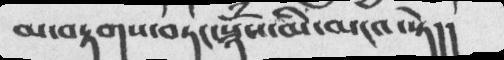མ་བརྟགས་བཏང་སྙོཾས་མི་མངའ་སྟེ།།
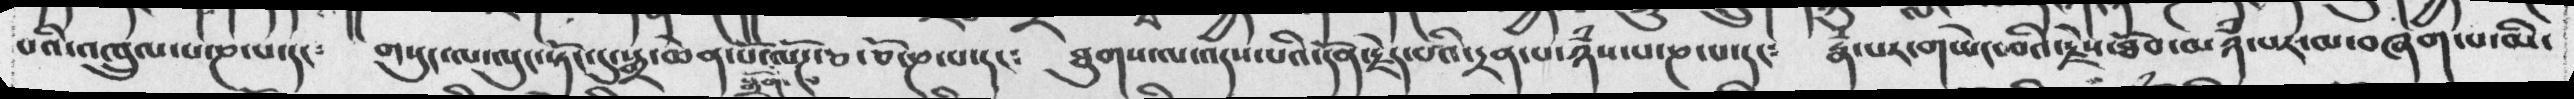པའི་འཁྲུལ་པ་ཎ་པ་དང༴  གསུང་ལ་ལུང་སྟོང་དུ་སྒྲ་ཆེན་པོ་སྒྲོག་ལོཌ་ཅ་ཅོ་ཎ་པ་དང༴  ཐུགས་ལ་འདས་པའི་དོན་རྗེད་པའི་དྲན་པ་ཉཾས་པ་ཎ་པ་དང༴  རྣཾ་པར་གཡེང་བའི་རྗེས་ཐོབ་མཉཾ་པར་མ་བཞག་པ་མི་
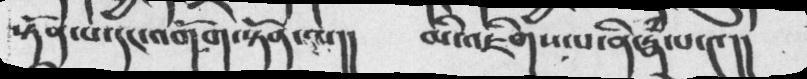སྟོན་པ་དང་འགོག་སྟོནལ།།  མི་འཇིགས་པ་ནི་རྣཾ་པ་༤།།
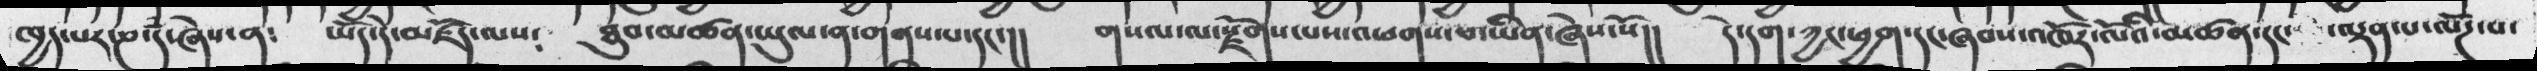ཁྱད་པར་ཎ་དཾ་ཞེས་ན༴  ཡོད་དེ་མཛོད་ལས༴  ཐུབ་མཚན་ཡུལ་ན་གནས་པ་དང་།།   གསལ་ལ་སྫོགས་པས་འཕགས་པ་ཡིན་ཞེས་སོ།།  དེ་དག་ཀྱང་ཕྱག་དང་ཞབས་འཁོར་ལོའི་མཚན་དང་   ་ལྡན་པ་ལོཌ་པ་
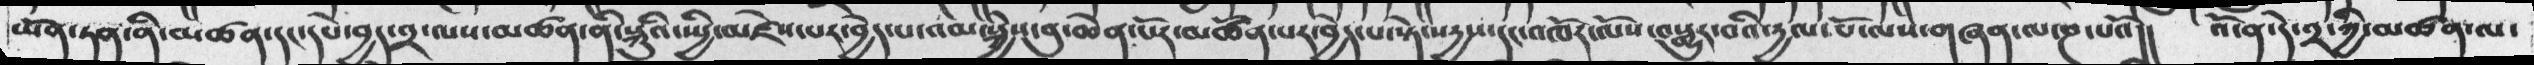ཡོན་ཏན་ནི་མཚན་དང་དཔེ་བྱད་༢་ལས་མཚན་ནི་སྐྱུའི་སྤྱི་མཛེས་པར་བྱེད་པ་འམ་སྐྱེས་བུ་ཆེན་པོར་མཚོན་པར་བྱེད་པ་སྟེ་སདྱས་དང་འཁོར་ལོས་བསྒྱུར་བའི་དྱལ་པོ་ལས་གཞན་ལ་ཎ་པའོ།།  འོ་ན་དེ་༢་ཀྱི་མཚན་ལ་
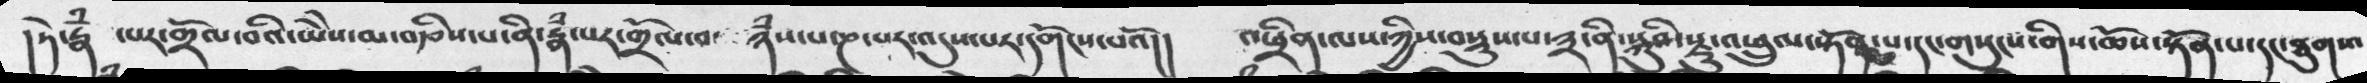། དེ་རྣཾ ་པར་གྲོལ་བའི་ཡེེས་མ་བརྩིས་པ་ནི་རྣཾ་པར་གྲོལ་བ་  ཉཾས་པ་ཎ་པར་འདུས་པར་དགོངས་པའོ།།  འཕྲིན་ལས་ཀྱིས་བསྡུས་པ་༣་ནི་སྐུའི་རྫུ་་འཕྲུལ་སྟོན་པ་དང་གསུངས་གིས་ཆོས་སྟོན་པ་དང་ཐུགས་
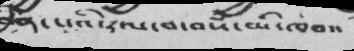བྱིན་པའི་རལ་བ་བསཾ་མི་ཁབ།།
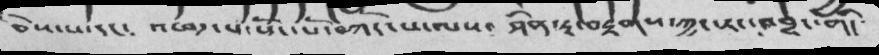ཅེས་པ་དང༴   འཕཌ་པ་སྡོང་པོ་བཀོད་པ་ལས༴  ཤིན་ཏུ་བརྟགས་ཀྱང་རང་འབྱུང་གདི༴
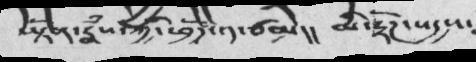ཡྟོན་རྣཾས་ཀྱི་ཕྱོཌ་༡་ཙམ།།  མི་རྟོཌ་སདྱས༴
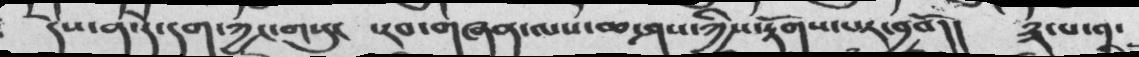དེས་ན་དེ་དག་ཀྱང་གསུང  ་རབ་གཞན་ལས་ཆ་ཤས་ཀྱིས་རྟོགས་པར་བྱའོ།།  ༣་པ་ན་
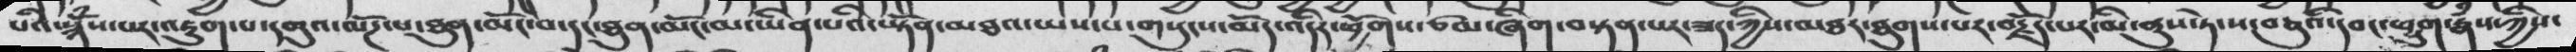པའི་སྒོཾས་པར་འཇུག་པ་དགུའ་ལོཌ་པ་ཐུན་མོང་བ་དང་ཐུན་མོང་མ་ཡིན་པའི་ཡྟོན་མཐའ་ཡས་པ་གསུངས་མོད་འདིར་ཕྱོགས་ཙམ་ཞིག་བསྟན་པར་ཟད་ཀྱིས་མཐར་ཐུགས་པར་བརྗོད་པར་མི་ནུས་ཏེ་ས་བཅུའི་དབང་ཕྱུག་རྣཾས་ཀྱིས་
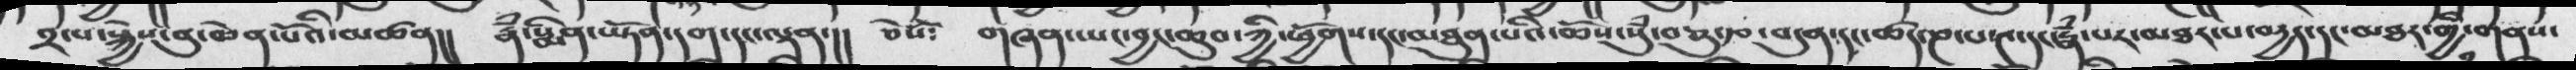༢་པ་སྐྱེས་བུ་ཆེན་པོའི་མཚན།།   རྣཾ་སྨིན་ཡྟོན་དག་དང་ལྡན་།།    ཅེསོ༴   གཞན་ཡང་བྱང་ཆུབ་ཀྱི་ཕྱོགས་དང་མཐུན་པའི་ཆོས་སུཾ་བཅུ་རྩ་བདུན་དང་ཚད་ཎ་པ་༤་དང་རྣཾ་པར་མཐར་པ་བདྱད་དང་མཐར་གྱི་གནས་
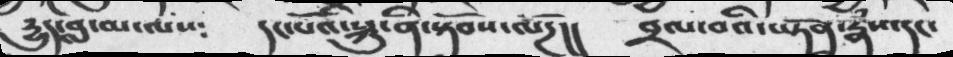རྱུད་བླ་མ་ལས༴    དང་པོའི་སྐུ་ནི་སྟོབས་ལོཌ།།     བྲལ་བའི་ཡྟོན་རྣཾས་དང་
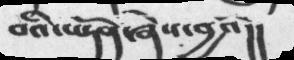བའི་ཡྟོན་ཞེས་བྱའོ།།
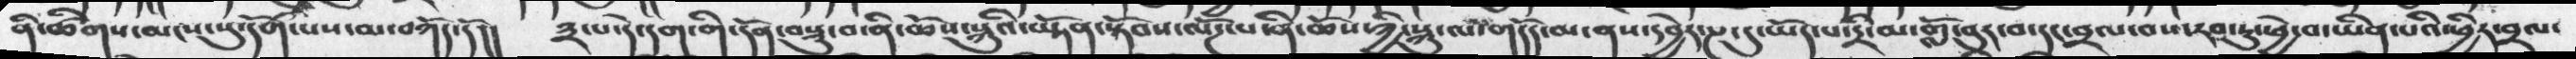ནི་ཚིགས་མངས་སུ་དགོ་པས་མ་བཀོད་དོ།།  ༣་པ་དེ་དག་གི་དོན་བསྡུ་བ་ནི་ཆོས་སྐུའི་ཡྟོན་སྟོབས་ལོཌ་པ་ནི་ཆོས་ཀྱི་སྐུ་ལ་གདོད་མ་ནས་དབྱེར་ཎ་དུ་ཡོད་པ་དྲི་མ་གློ་བུར་བ་དང་བྲལ་བས་རབ་ཏུ་ཕྱེ་བ་ཡིན་པའི་ཕྱིར་བྲལ་
